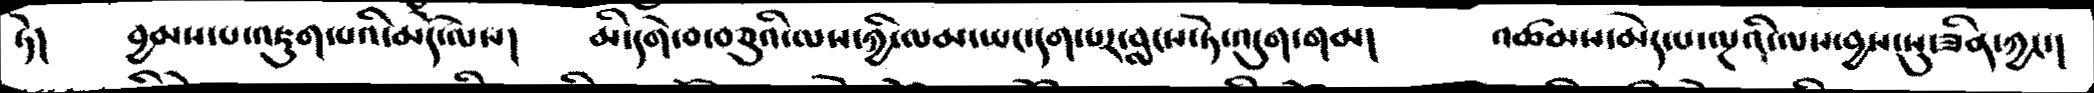ཏེ།   བྱམས་པ་འཇུག་པའི་མདོ་ལས།   མི་དགེ་བ་བཅུའི་ལས་ཀྱི་ལམ་ཡང་དག་པར་བླངས་ཏེ་འདུག་གམ།   འཚམས་མེད་པ་ལྔའི་ལས་བྱས་སུ་ཟིན་ཀྱང་།
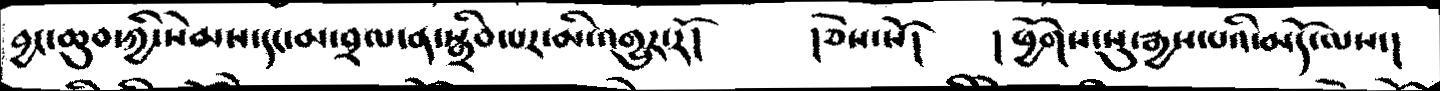བྱང་ཆུབ་ཀྱི་སེམས་དང་མ་བྲལ་ན་སྒྲིབ་པར་མི་འགྱུར་རོ།    །ཅེས་སོ།   །ཕྱོགས་སུ་རྒྱས་པའི་མདོ་ལས་།
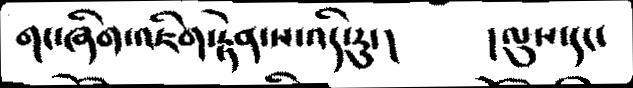གང་ཞིག་འཇིག་རྟེན་ས་འདི་རུ་།    །ལུས་དང་
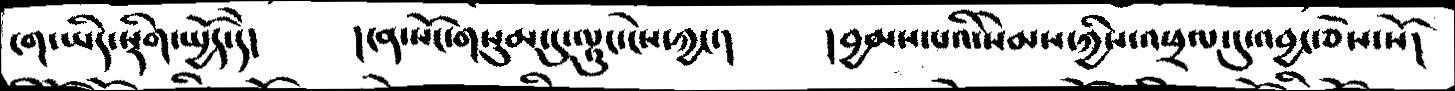ངག་ཡིད་སྡིག་སྤྱོད་དེ།   །ངན་སོང་གསུམ་དུ་ལྟུང་ངེས་ཀྱང་།    །བྱམས་པའི་སེམས་ཀྱིས་འཕྲལ་དུ་འབྱང་ཅེས་སོ།
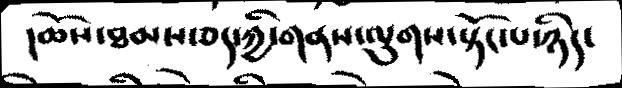།ཆོས་ཐམས་ཅད་ཀྱི་གནས་ལུགས་སྟོང་པ་ཉིད་
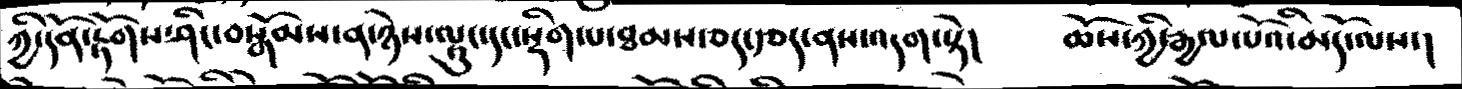ཀྱི་དོན་རྟོགས་ཤིང་བསྒོམས་ན་ཉེས་ལྟུང་དང་སྡིག་པ་ཐམས་ཅད་རྩད་ནས་འདག་སྟེ།    ཆོས་ཀྱི་རྒྱལ་པོའི་མདོ་ལས་།
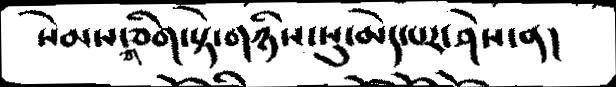སེམས་གཅིག་སྟེ་གཉིས་སུ་མེད་པར་ཤེས་ན།
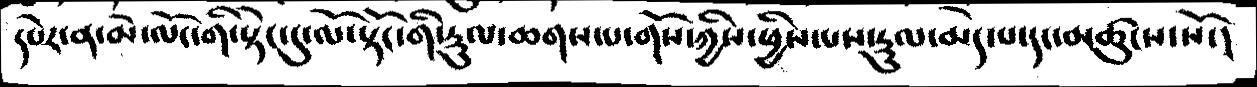དཔེར་ན་མེ་ལོང་གི་སྟེང་དུ་ལོ་སྟོང་གི་རྡུལ་ཆགས་པ་གོས་ཀྱིས་ཕྱིས་པས་རྡུལ་མེད་པ་དང་མཚུངས་སོ་།
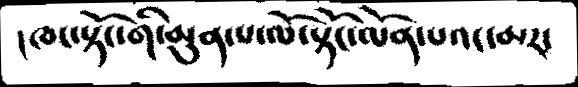།ཁང་སྟོང་གི་མུན་པ་ལོ་སྟོང་ལོན་པའང་མར་
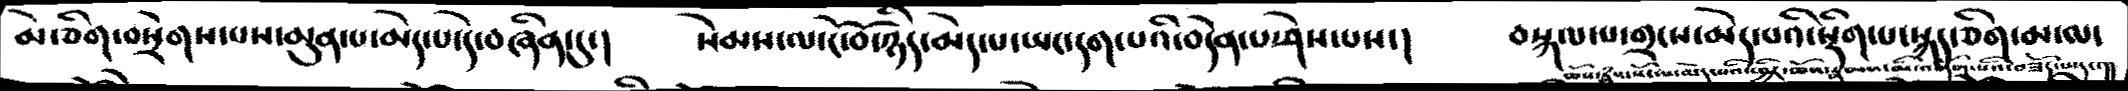མེ་ཅིག་བསྲེགས་པས་མུན་པ་མེད་པ་དེ་བཞིན་དུ་།   སེམས་ལ་ངོ་བོ་ཉིད་མེད་པ་ཡང་དག་པའི་བདེན་པ་ཤེས་པས་།   བསྐལ་པ་གྲངས་མེད་པའི་སྡིག་པ་སྐད་ཅིག་མ་ལ་
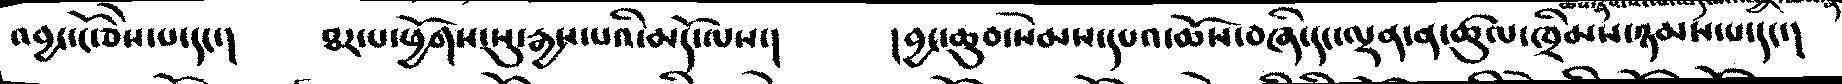འབྱང་ངོ་ཅེས་པ་དང་།   ཐར་པ་ཕྱོགས་སུ་རྒྱས་པའི་མདོ་ལས་།   །བྱང་ཆུབ་སེམས་དཔའ་ཆོས་བཞི་དང་ལྡན་ན་ཚུལ་ཁྲིམས་ཉམས་པ་དང་།
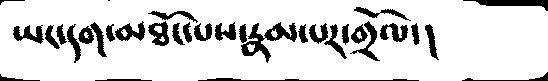ཡང་དག་མཐོང་པས་རྣམ་པར་གྲོལ་།
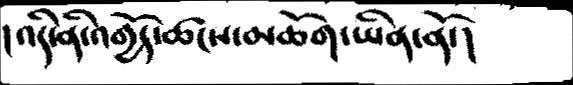།འདི་ནི་འགྱོད་ཚངས་མཆོག་ཡིན་ནོ་།
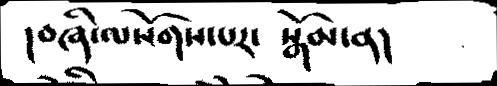།བཞི་ལསོགས་པར་  སྒོམ་ན།
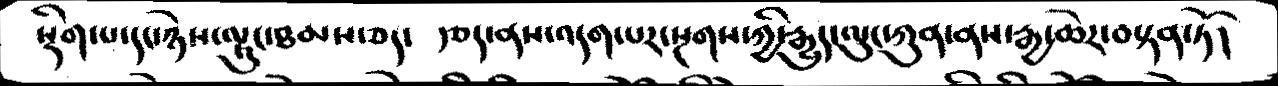སྡིག་པ་དང་ཉེས་ལྟུང་ཐམས་ཅད་  རྩད་ནས་འདག་པར་སྔགས་ཀྱི་རྒྱུད་ལུང་ཀུན་ནས་རྒྱ་ཆེར་བསྟན་ཏོ།
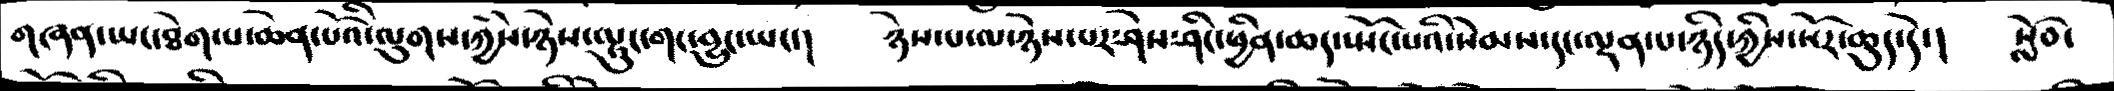གཞན་ཡང་ཐེག་པ་ཆེན་པོའི་ལུགས་ཀྱིས་ཉེས་ལྟུང་གང་བྱུང་ཡང་།   ཉེས་པ་ལ་ཉེས་པར་ཤེས་ཤིང་ཕྱིན་ཆད་སྤོང་པའི་སེམས་དང་ལྡན་པ་ཉིད་ཀྱིས་སོར་ཆུད་དེ་།   སློབ་
